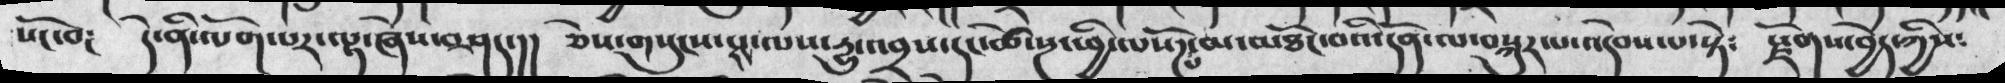སོང་བ༴   དེ་ནི་ལོག་པར་ལྟ་ཞེས་བཤད་།།   ཅེས་གསུངས་པས་ལས་དྱུ་འབྲས་དང་ཚེ་སྔ་ཕྱི་ལསོཌ་པ་མ་མཐོང་བའི་དོན་ལ་བསྐུར་པ་འདེབས་པ་སྟེ༴   རྫོགས་བྱེད་ཀྱིས༴
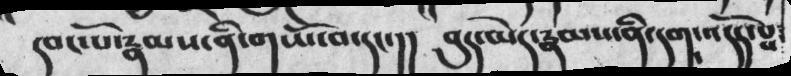དབང་པོ་རྣམས་ནི་གཡོ་བ་དང་།།  བུད་མེད་རྣམས་ནི་དག་འདོད་པས་
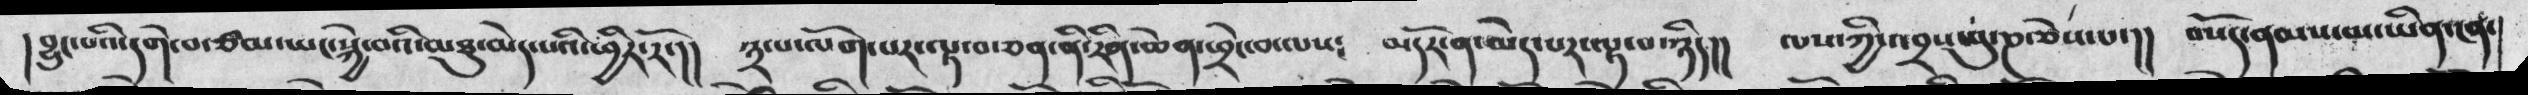།བྱུང་པའི་དགེ་བ་ཙམ་ཡང་སྐྱེ་བའི་མཐུ་མེད་པའི་ཕྱིར་རོ་།། ༣་པ་ལོག་པར་ལྟ་བ་ཅན་ནི་རིན་ཆེན་ཕྲེང་བ་ལས༴ མདོར་ན་མེད་པར་ལྟ་བ་ཉིད།། ལས་ཀྱི་འབྲས་བུ་ཎ་ཅེས་པ་།། བསོད་ནམས་མ་ཡིན་ངན་
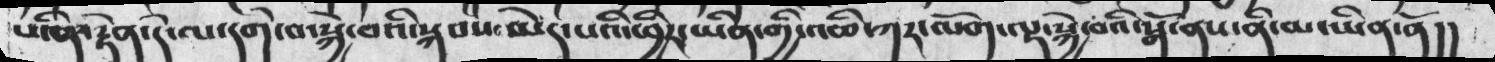པ་ནི་རྟེན་དེ་ལ་དགེ་བ་སྐྱེ་བའི་སྐབས་མེད་པའི་ཕྱིར་ཡིན་གྱི་འཆི་ཀར་ལོག་ལྟ་སྐྱེ་བའི་སྒོ་ནས་ནི་མ་ཡིན་ནོ།།
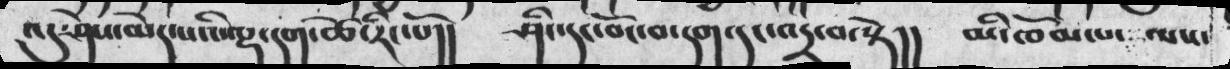འདུ་ཤེས་མེད་པའི་ལྷ་དག་ཚེ་རིང་པོ།། ཤིང་དང་བོང་བ་དག་དང་འདྲ་བ་སྟེ།།
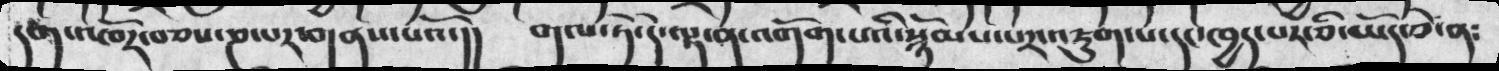དག་འཁོར་བཅས་ཎ་པར་གནས་པའོ་།། གལ་ཏེ་དེ་ལྟ་ན་འགོག་པའི་སྙོམས་པར་འཇུག་པ་དང་ཁྱད་པར་ཅི་ཡོད་ཅེ་ན༴
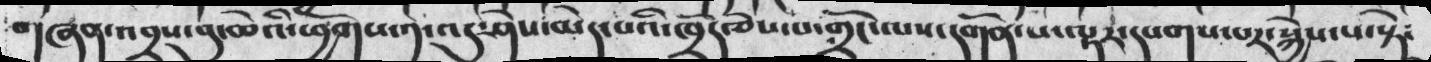གཞན་འབྲས་བུ་ཆེའི་ཕྱོགས་༡་འདུ་ཤེས་མེད་པའི་ཁྲོད་ཅེས་པ་གྲོང་ལས་དགོན་པ་ལྟར་དཔགས་པར་སྐྱེས་པ་སྟེ༴
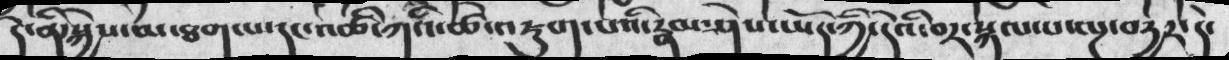དེ་ནི་སྐྱེས་མ་ཐག་པ་དང་འཆི་ཀའི་ཚེ་འཇུག་པའི་རྣམ་ཤེས་ཡོད་ཀྱི་དེའི་བར་སྐལ་པ་ལྔ་བརྱར་དེ་
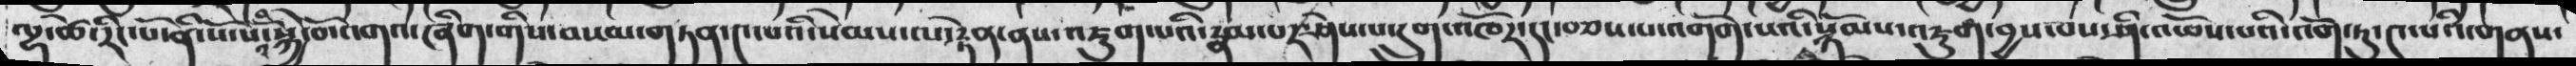ལྷ་ཚེ་རིང་པོ་ནི་སོ་སོའི་སྐྱེ་བོ་འགའ་ཞིག་གིས་བསམ་གཏན་༤་པའི་སེམས་ལ་རྟེན་ནས་འཇུག་པའི་རྣམ་པར་ཤེས་པ་དྲུག་འཁོར་དང་བཅས་པ་འགོག་པའི་སྙོམས་འཇུག་བྱས་པས་ཤི་འཕོས་པའི་འོག་ཏུ་༤་པའི་གནས་
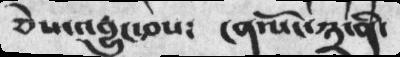ཅེས་འབྱུང་བས༴ ངན་སོང་༣་ནི་
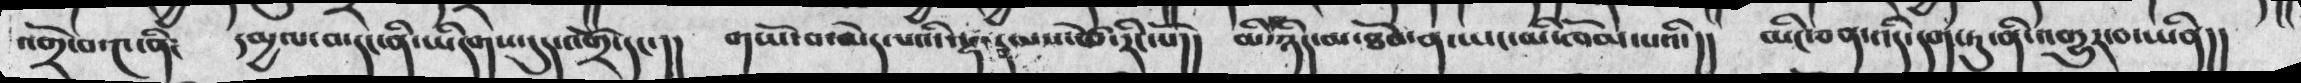འགྲོ་བ་༤་ནི༴ དམྱལ་བ་དང་ནི་ཡིདགས་དུད་འགྲོ་དང་།། གཡོ་བ་མེད་པའི་ལྷ་རྣམས་ཚེ་རིང་པོ།། མི་ཉིད་མ་ཐོབ་ན་ཡང་མི་ཁོམ་པའི་།། མིང་ཅན་འདི་དག་ཏུ་ནི་འགྱུར་བ་ཡིན།།
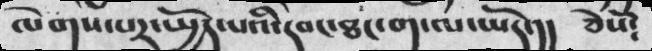ལེགས་པར་སྤྱོད་པའི་དབང་ཐང་ག་ལ་ཡོད་།། ཅེསོ༴
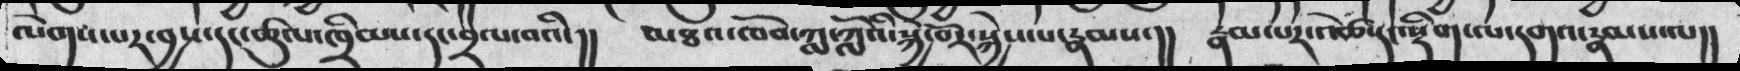ལེགས་པར་བྱས་དང་ཚུལ་ཁྲིམས་དང་བྲལ་བའི་།།  མཐའ་ཁོབ་ཀླ་ཀློའི་སྐྱེ་བོར་སྐྱེས་པ་རྣམས་།།  རྣམ་པར་འཚེ་དང་སྡིག་ལ་དགའ་རྣམས་ལ།།
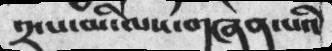༢་པ་མི་ལས་གཞན་པའི
